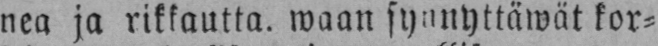nea ja rikkautta, waan synnyttäwät kor-
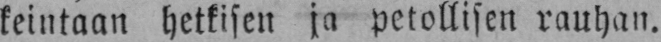keintaan hetkisen ja petollisen rauhan.
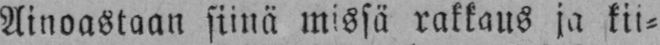Ainoastaan siinä missä rakkaus ja kii-
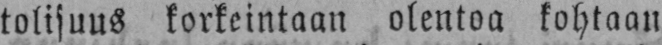tolisuus korkeintaan olentoa kohtaan
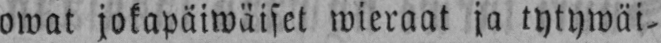owat jokapäiwäiset wieraat ja tytywäi-
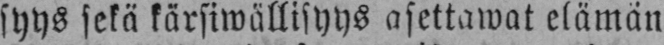syys sekä kärsiwällisyys asettawat elämän
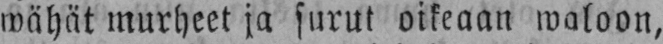wähät murheet ja surut oikeaan waloon,
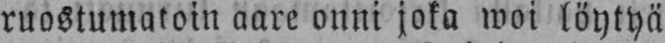ruostumatoin aare onni joka woi löytyä
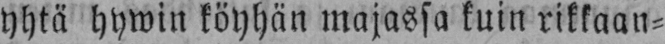yhtä hywin köyhän majassa kuin rikkaan-
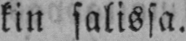kin salissa.
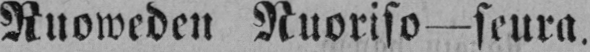Ruoweden Nuoriso—seura.
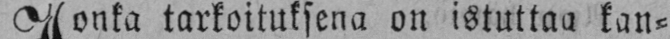Jonka tarkoituksena on istuttaa kan-
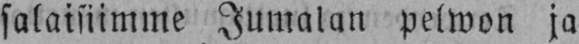salaisiimme Jumalan pelwon ja
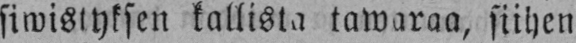siwistyksen kallista tawaraa, siihen
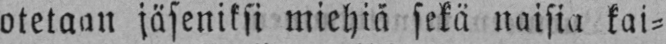otetaan jäseniksi miehiä sekä naisia kai-
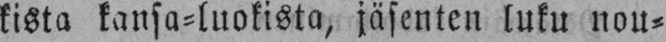kista kansa-luokista, jäsenten luku nou-
